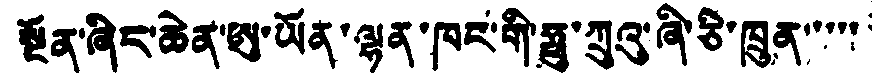སྔོན་ཞིང་ཆེན་ཨུ་ཡོན་ལྷན་ཁང་གི་ཧྥུ་ཀྲུའུ་ཞི་ཅི་ཁྲུན་་་་་་
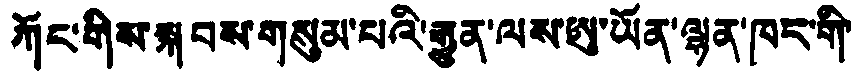ཀོང་གིས་སྐབས་གསུམ་པའི་རྒྱུན་ལས་ཨུ་ཡོན་ལྷན་ཁང་གི་
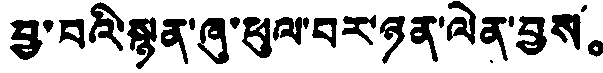བྱ་བའི་སྙན་ཞུ་ཕུལ་བར་ཉན་ལེན་བྱས。
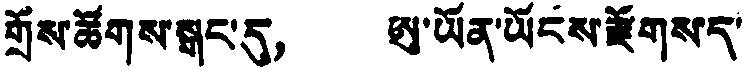གྲོས་ཚོགས་སྒང་དུ， ཨུ་ཡོན་ཡོངས་རྫོགས་ད་
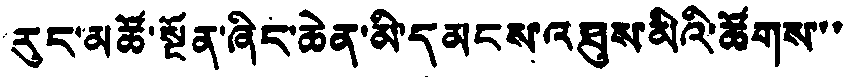རུང་མཚོ་སྔོན་ཞིང་ཆེན་མི་དམངས་འཐུས་མིའི་ཚོགས་་་
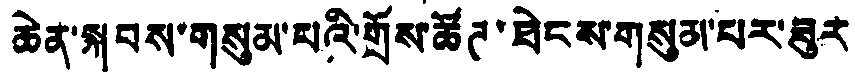ཆེན་སྐབས་གསུམ་པའི་གྲོས་ཚོཊ་ཐེངས་གསུམ་པར་ཟུར
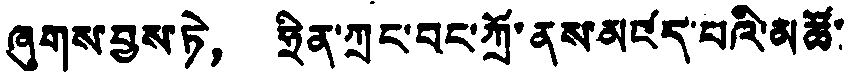ཞུགས་བྱས་ཏེ， ཧྲིན་ཀྲང་བང་ཀྲོ་ནས་མཛད་པའི་མཚོ་
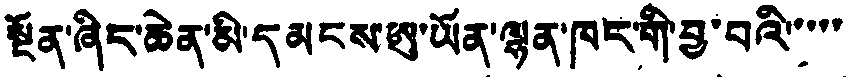སྔོན་ཞིང་ཆེན་མི་དམངས་ཨུ་ཡོན་ལྷན་ཁང་གི་བྱ་བའི་་་་་
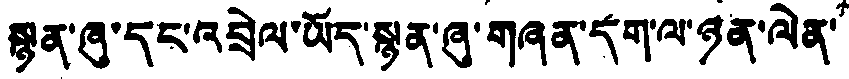སྙན་ཞུ་དང་འབྲེལ་ཡོད་སྙན་ཞུ་གཞན་དག་ལ་ཉན་ལེན་
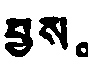བྱས。
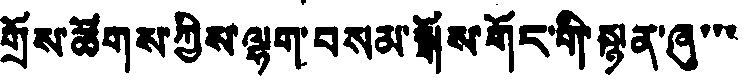གྲོས་ཚོགས་ཀྱིས་ལྷག་བསམ་སྒོས་གོང་གི་སྙན་ཞུ་་་
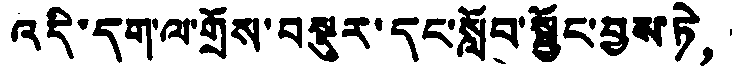འདི་དག་ལ་གྲོས་བསྡུར་དང་སློབ་སྦྱོང་བྱས་ཏེ，
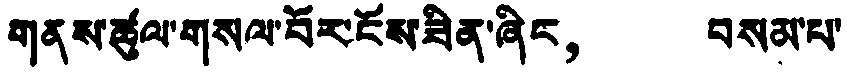གནས་ཚུལ་གསལ་པོར་ངོས་ཟིན་ཞིང， བསམ་པ་
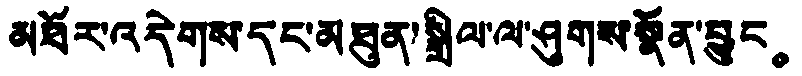མཐོར་འདེགས་དང་མཐུན་སྒྲིལ་ལ་ཤུགས་སྣོན་བྱུང。
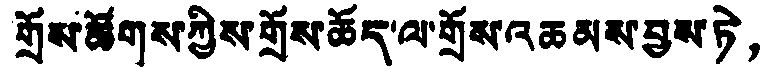གྲོས་ཚོགས་ཀྱིས་གྲོས་ཆོད་ལ་གྲོས་འཆམས་བྱས་ཏེ，
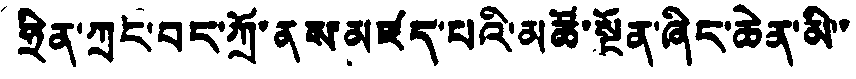ཧྲིན་ཀྲང་བང་ཀྲོ་ནས་མཛད་པའི་མཚོ་སྔོན་ཞིང་ཆེན་མི་་
